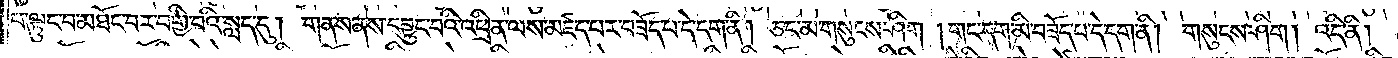པ་ལྟུང་བ་མཐོང་བར་བགྱི་བའི་སླད་དུ། གནས་ནས་དབྱུང་བའི་འཕྲིན་ལས་མཛད་པར་བཟོད་པ་དེ་དག་ནི། ཅང་མ་གསུངས་ཤིག །གང་དག་མི་བཟོད་པ་དེ་དག་ནི། གསུངས་ཤིག། འདི་ནི།
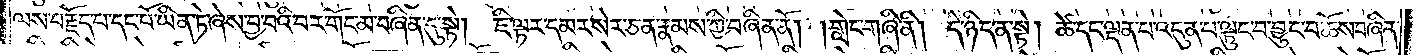ལས་བརྗོད་པ་དང་པོ་ཡིན་ཏེ་ཞེས་བྱ་བའི་བར་གོང་མ་བཞིན་དུ་སྟེ། ཇི་ལྟར་དམར་སེར་ཅན་རྣམས་ཀྱི་བཞིན་ནོ། །གླེང་གཞི་ནི། དེ་ཉིད་ན་སྟེ། ཚེ་དང་ལྡན་པ་འདུན་པ་ལྟུང་བ་བྱུང་བ་ཆོས་བཞིན་
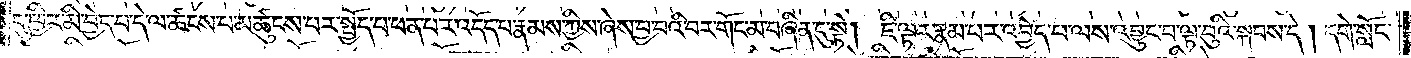དུ་ཕྱིར་མི་བྱེད་པ་དེ་ལ་ཚངས་པ་མཚུངས་པར་སྤྱོད་པ་ཕན་པར་འདོད་པ་རྣམས་ཀྱིས་ཞེས་བྱ་བའི་བར་གོང་མ་བཞིན་དུ་སྟེ། ཇི་ལྟར་རྣམ་པར་འབྱེད་པ་ལས་འབྱུང་བ་ལྟ་བུའི་སྐབས་དེ། དགེ་སློང་
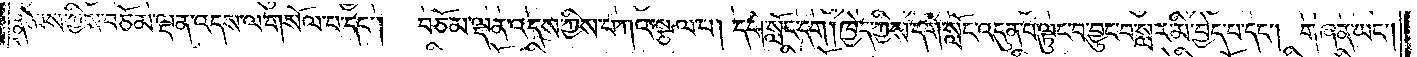རྣམས་ཀྱིས་བཅོམ་ལྡན་འདས་ལ་གསོལ་པ་དང༌། བཅོམ་ལྡན་འདས་ཀྱིས་བཀའ་སྩལ་པ། དགེ་སློང་དག །ཁྱེད་ཀྱིས་དགེ་སློང་འདུན་པ་ལྟུང་བ་བྱུང་བ་སླར་མི་བྱེད་པ་དང༌། གཞན་ཡང༌།
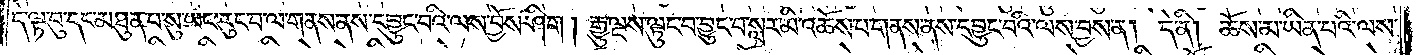དེ་ལྟ་བུ་དང་མཐུན་པ་སུ་ཡང་རུང་བ་ལ་གནས་ནས་དབྱུང་བའི་ལས་བྱོས་ཤིག །རྒྱུ་ལྔས་ལྟུང་བ་བྱུང་བ་སླར་མི་འཆོས་པ་གནས་ནས་དབྱུང་བའི་ལས་བྱས་ན། དེ་ནི། ཆོས་མ་ཡིན་པའི་ལས་
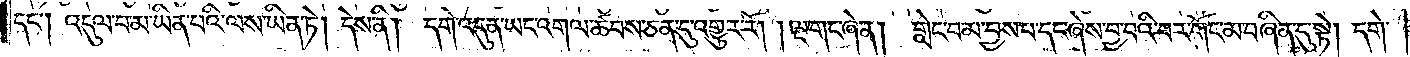དང༌། འདུལ་བ་མ་ཡིན་པའི་ལས་ཡིན་ཏེ། དེས་ནི། དགེ་འདུན་ཡང་འགལ་ཚབས་ཅན་དུ་འགྱུར་རོ། །ལྔ་གང་ཞེ་ན། གླེང་བ་མ་བྱས་པ་དང་ཞེས་བྱ་བའི་བར་གོང་མ་བཞིན་དུ་སྟེ། དགེ་
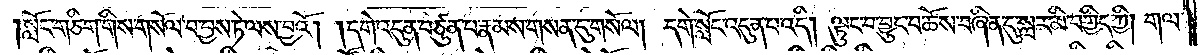སློང་གཅིག་གིས་གསོལ་བ་བྱས་ཏེ་ལས་བྱའོ། །དགེ་འདུན་བཙུན་པ་རྣམས་གསན་དུ་གསོལ། དགེ་སློང་འདུན་པ་འདི། ལྟུང་བ་བྱུང་བ་ཆོས་བཞིན་དུ་སླར་མི་བགྱིད་ཀྱི། གལ་
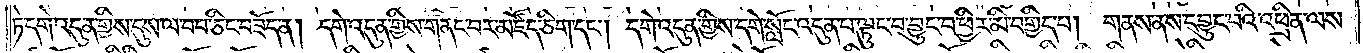ཏེ་དགེ་འདུན་གྱིས་དུས་ལ་བབ་ཅིང་བཟོད་ན། དགེ་འདུན་གྱིས་གནང་བར་མཛོད་ཅིག་དང༌། དགེ་འདུན་གྱིས་དགེ་སློང་འདུན་པ་ལྟུང་བ་བྱུང་བ་ཕྱིར་མི་བགྱིད་པ། གནས་ནས་དབྱུང་བའི་འཕྲིན་ལས་
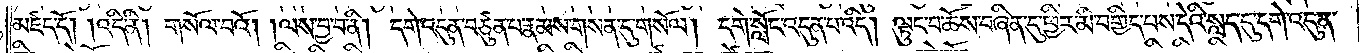མཛད་དོ། །འདི་ནི། གསོལ་བའོ། །ལས་བྱ་བ་ནི། དགེ་འདུན་བཙུན་པ་རྣམས་གསན་དུ་གསོལ། དགེ་སློང་འདུན་པ་འདི། ལྟུང་བ་ཆོས་བཞིན་དུ་ཕྱིར་མི་བགྱིད་པས་དེའི་སླད་དུ་དགེ་འདུན་
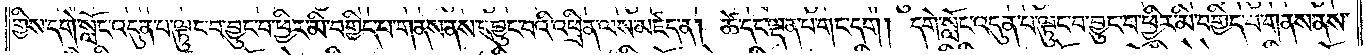གྱིས་དགེ་སློང་འདུན་པ་ལྟུང་བ་བྱུང་བ་ཕྱིར་མི་བགྱིད་པ་གནས་ནས་དབྱུང་བའི་འཕྲིན་ལས་མཛད་ན། ཚེ་དང་ལྡན་པ་གང་དག། དགེ་སློང་འདུན་པ་ལྟུང་བ་བྱུང་བ་ཕྱིར་མི་བགྱིད་པ་གནས་ནས་
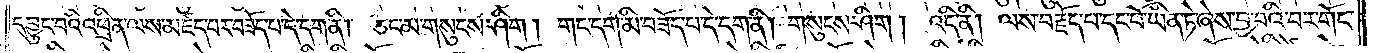དབྱུང་བའི་འཕྲིན་ལས་མཛད་པར་བཟོད་པ་དེ་དག་ནི། ཅང་མ་གསུངས་ཤིག །གང་དག་མི་བཟོད་པ་དེ་དག་ནི། གསུངས་ཤིག། འདི་ནི། ལས་བརྗོད་པ་དང་པོ་ཡིན་ཏེ་ཞེས་བྱ་བའི་བར་གོང་
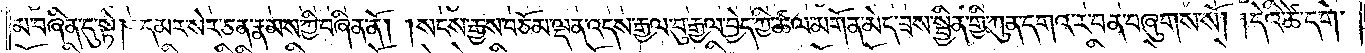མ་བཞིན་དུ་སྟེ། དམར་སེར་ཅན་རྣམས་ཀྱི་བཞིན་ནོ།    །སངས་རྒྱས་བཅོམ་ལྡན་འདས་རྒྱལ་བུ་རྒྱལ་བྱེད་ཀྱི་ཚལ་མགོན་མེད་ཟས་སྦྱིན་གྱི་ཀུན་དགའ་ར་བ་ན་བཞུགས་སོ། །དེའི་ཚེ་དགེ་
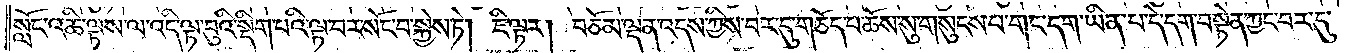སློང་འཆི་ལྟས་ལ་འདི་ལྟ་བུའི་སྡིག་པའི་ལྟ་བར་སོང་བ་སྐྱེས་ཏེ། ཇི་ལྟར། བཅོམ་ལྡན་འདས་ཀྱིས་བར་དུ་གཅོད་པ་ཆོས་སུ་གསུངས་པ་གང་དག་ཡིན་པ་དེ་དག་བསྟེན་ཀྱང་བར་དུ་
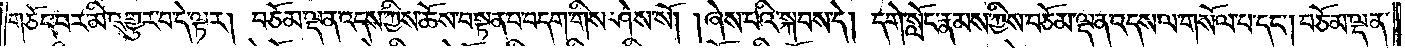གཅོད་པར་མི་འགྱུར་བ་དེ་ལྟར། བཅོམ་ལྡན་འདས་ཀྱིས་ཆོས་བསྟན་པ་བདག་གིས་ཤེས་སོ། །ཞེས་པའི་སྐབས་དེ། དགེ་སློང་རྣམས་ཀྱིས་བཅོམ་ལྡན་འདས་ལ་གསོལ་པ་དང༌། བཅོམ་ལྡན་
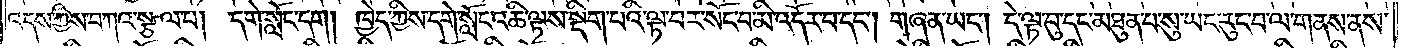འདས་ཀྱིས་བཀའ་སྩལ་པ། དགེ་སློང་དག། ཁྱེད་ཀྱིས་དགེ་སློང་འཆི་ལྟས་སྡིག་པའི་ལྟ་བར་སོང་བ་མི་འདོར་བ་དང༌། གཞན་ཡང༌། དེ་ལྟ་བུ་དང་མཐུན་པ་སུ་ཡང་རུང་བ་ལ་གནས་ནས་
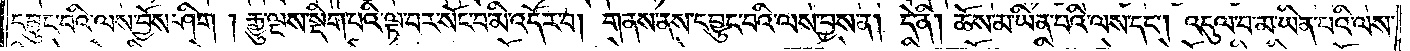དབྱུང་བའི་ལས་བྱོས་ཤིག །རྒྱུ་ལྔས་སྡིག་པའི་ལྟ་བར་སོང་བ་མི་འདོར་བ། གནས་ནས་དབྱུང་བའི་ལས་བྱས་ན། དེ་ནི། ཆོས་མ་ཡིན་པའི་ལས་དང༌། འདུལ་བ་མ་ཡིན་པའི་ལས་
